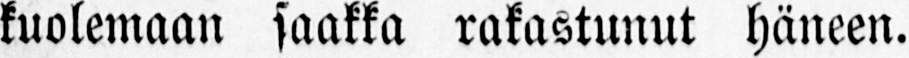kuolemaan saakka rakastunut häneen.
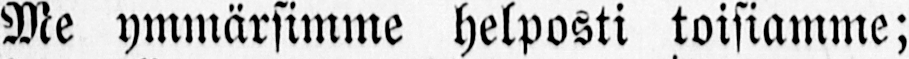Me ymmärsimme helposti toisiamme;
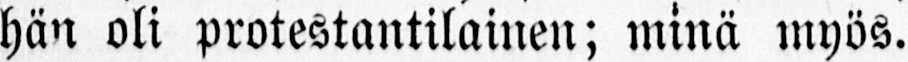hän oli protestantilainen; minä myös.
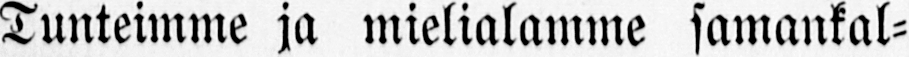Tunteimme ja mielialamme samankal-
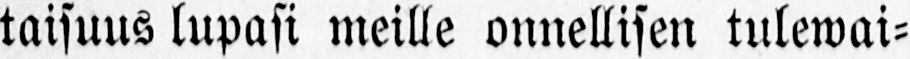taisuus lupasi meille onnellisen tulewai-
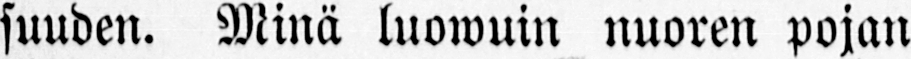suuden. Minä luowuin nuoren pojan
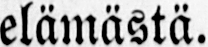elämästä.
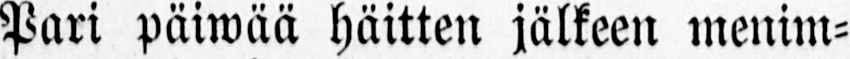Pari päiwää häitten jälkeen menim-
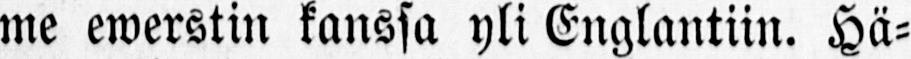me ewerstin kanssa yli Englantiin. Hä-
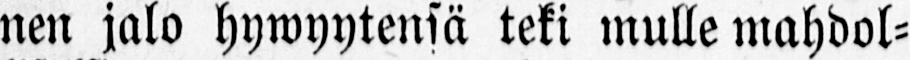nen jalo hywyytensä teki mulle mahdol-
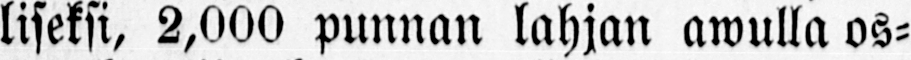liseksi, 2,000 punnan lahjan awulla os-
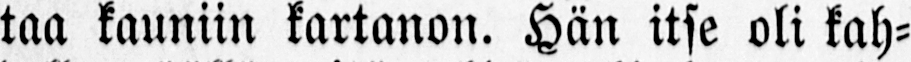taa kauniin kartanon. Hän itse oli kah-
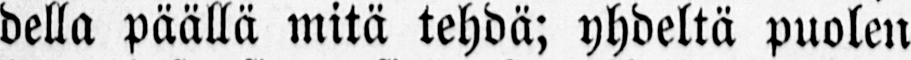della päällä mitä tehdä; yhdeltä puolen
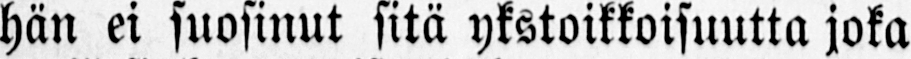hän ei suosinut sitä ykstoikkoisuutta joka
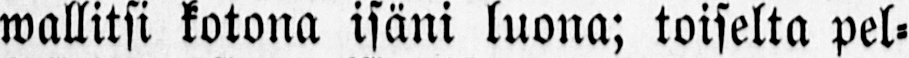wallitsi kotona isäni luona; toiselta pel-
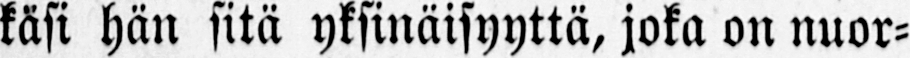käsi hän sitä yksinäisyyttä, joka on nuor-
